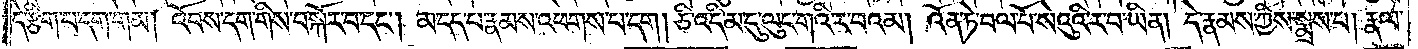དེ་རྩིག་པ་དག་གམ། འོབས་དག་གིས་བསྐོར་བ་དང༌། མ་དད་པ་རྣམས་འཕགས་པ་དག། ཅི་འདྲི་མ་དུ་ལུང་གའི་ར་བའམ། འོན་ཏེ་བལ་པོ་སེའུའི་ར་བ་ཡིན། དེ་རྣམས་ཀྱིས་སྨྲས་པ། རྣལ་
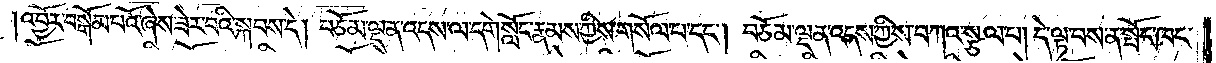འབྱོར་བསྒོམ་པའོ་ཞེས་ཟེར་བའི་སྐབས་དེ། བཅོམ་ལྡན་འདས་ལ་དགེ་སློང་རྣམས་ཀྱིས་གསོལ་པ་དང༌། བཅོམ་ལྡན་འདས་ཀྱིས་བཀའ་སྩལ་པ། དེ་ལྟ་བས་ན་སྤོང་ཁང་
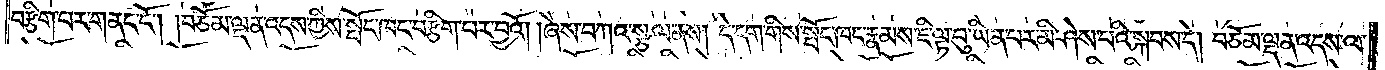བརྩིག་པར་གནང་ངོ༌། །བཅོམ་ལྡན་འདས་ཀྱིས་སྤོང་ཁང་བརྩིག་པར་བྱའོ། །ཞེས་བཀའ་སྩལ་ནས། དེ་དག་གིས་སྤོང་ཁང་རྣམས་ཇི་ལྟ་བུ་ཡིན་པར་མི་ཤེས་པའི་སྐབས་དེ། བཅོམ་ལྡན་འདས་ལ་
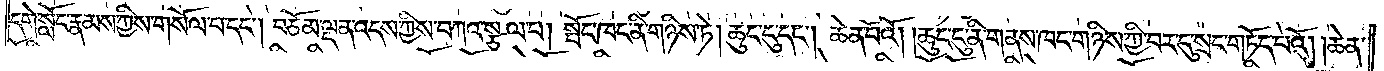དགེ་སློང་རྣམས་ཀྱིས་གསོལ་པ་དང༌། བཅོམ་ལྡན་འདས་ཀྱིས་བཀའ་སྩལ་པ། སྤོང་ཁང་ནི་གཉིས་ཏེ། ཆུང་ངུ་དང༌། ཆེན་པོའོ། །ཆུང་ངུ་ནི་གནས་ཁང་གཉིས་ཀྱི་བར་དུ་སྲང་གཏོད་པའོ། །ཆེན་
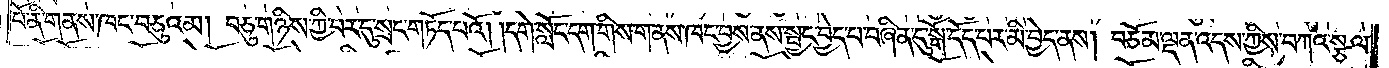པོ་ནི་གནས་ཁང་བཅུའམ། བཅུ་གཉིས་ཀྱི་བར་དུ་སྲང་གཏོད་པའོ། །དགེ་སློང་དག་གིས་གནས་ཁང་བྱས་ནས་སྦྱང་བྱེད་པ་བཞིན་དུ་སྒོ་དོད་པར་མི་བྱེད་ནས། བཅོམ་ལྡན་འདས་ཀྱིས་བཀའ་སྩལ་
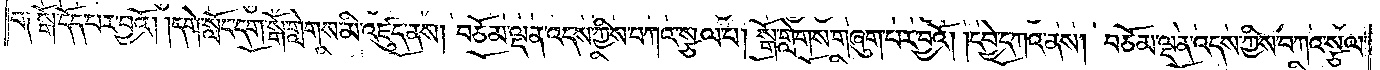བ ༑དོད་པར་བྱའོ། །དགེ་སློང་དག་སྒོ་གླེགས་མི་འཛུད་ནས། བཅོམ་ལྡན་འདས་ཀྱིས་བཀའ་སྩལ་པ། སྒོ་གླེགས་གཞུག་པར་བྱའོ། །དབྱེ་དཀའ་ནས། བཅོམ་ལྡན་འདས་ཀྱིས་བཀའ་སྩལ་
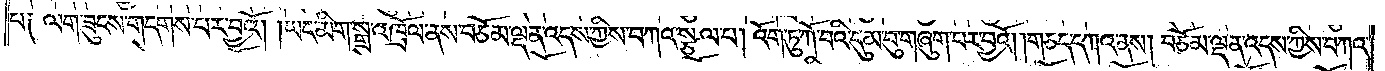པ ༑ ལག་ཟུངས་གདགས་པར་བྱའོ། །ཡང་མིག་སྒྲ་འཁྲོལ་ནས་བཅོམ་ལྡན་འདས་ཀྱིས་བཀའ་སྩལ་པ། འོག་ཏུ་ཀོ་བའི་དུམ་བུ་གཞུག་པར་བྱའོ། །གཅད་དཀའ་ནས། བཅོམ་ལྡན་འདས་ཀྱིས་བཀའ་
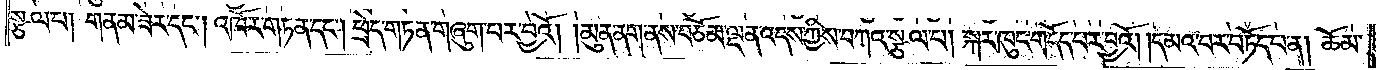སྩལ་པ། གནམ་ཟེར་དང༌། འཁོར་གཏན་དང༌། ཕྲེད་གཏན་གཞུག་བར་བྱའོ། །མུན་ནག་ནས་བཅོམ་ལྡན་འདས་ཀྱིས་བཀའ་སྩལ་པ། སྐར་ཁུང་གདོད་པར་བྱའོ། །དམའ་བར་བཏོད་པ་ན། ཆོམ་
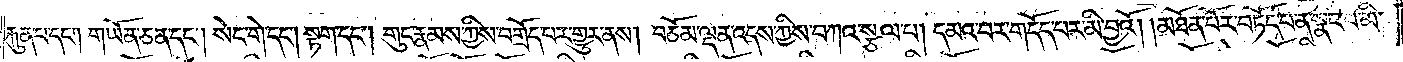རྐུན་པ་དང༌། གཡོན་ཅན་དང༌། སེང་གེ་དང༌། སྟག་དང༌། གུང་རྣམས་ཀྱིས་བགྲོད་པར་གྱུར་ནས། བཅོམ་ལྡན་འདས་ཀྱིས་བཀའ་སྩལ་པ། དམའ་བར་གདོད་པར་མི་བྱའོ། །མཐོན་པོར་བཏོད་པ་ན་སྣང་བ་མི་
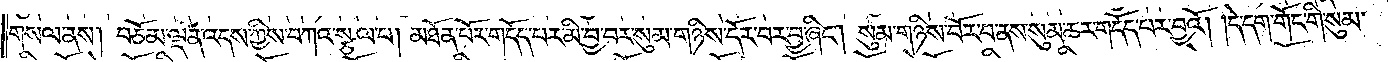གསལ་ནས། བཅོམ་ལྡན་འདས་ཀྱིས་བཀའ་སྩལ་པ། མཐོན་པོར་གདོད་པར་མི་བྱ་བར་སུམ་གཉིས་དོར་བར་བྱ་ཞིང༌། སུམ་གཉིས་བོར་བ་ནས་སུམ་ཆར་གདོད་པར་བྱའོ། །དེ་དག་གོང་གི་སུམ་
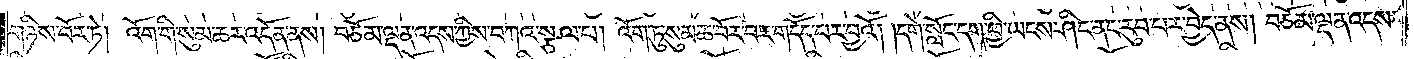གཉིས་བོར་ཏེ། འོག་གི་སུམ་ཆར་འདོན་ནས། བཅོམ་ལྡན་འདས་ཀྱིས་བཀའ་སྩལ་པ། འོག་ཏུ་སུམ་ཆ་བོར་བར་གདོད་པར་བྱའོ། །དགེ་སློང་དག་ཕྱི་ཡངས་ཤིང་ནང་རུབ་པར་བྱེད་ནས། བཅོམ་ལྡན་འདས་
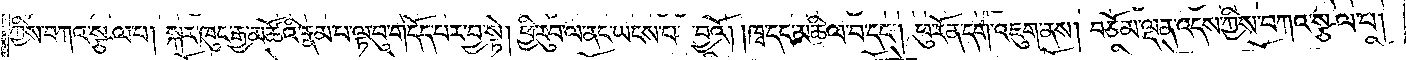ཀྱིས་བཀའ་སྩལ་པ། སྐར་ཁུང་རྒྱ་མཚོའི་རྣམ་པ་ལྟ་བུ་གདོད་པར་བྱ་སྟེ། ཕྱི་རུབ་ལ་ནང་ཡངས་པར་བྱའོ། །ཁྭ་དང་མཆིལ་བ་དང༌། ཕུ་རོན་དག་འཇུག་ནས། བཅོམ་ལྡན་འདས་ཀྱིས་བཀའ་སྩལ་པ།
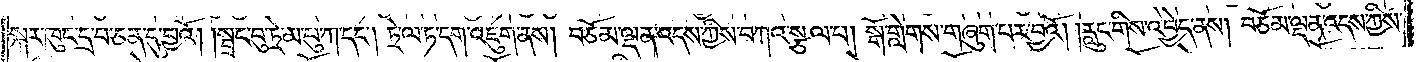སྐར་ཁུང་དྲ་བ་ཅན་དུ་བྱའོ། །སྦྲང་བུ་ཏྲེ་མ་པུ་ཀ་དང༌། ཏྲེ་ལ་ཏ་དག་འཇུག་ནས། བཅོམ་ལྡན་འདས་ཀྱིས་བཀའ་སྩལ་པ། སྒོ་གླེགས་གཞུག་པར་བྱའོ། །རླུང་གིས་འབྱེད་ནས། བཅོམ་ལྡན་འདས་ཀྱིས་
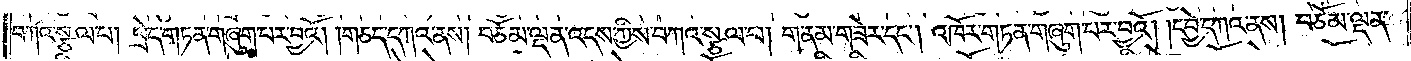བཀའ་སྩལ་པ། ཕྲེད་གཏན་གཞུག་པར་བྱའོ། །གཅད་དཀའ་ནས། བཅོམ་ལྡན་འདས་ཀྱིས་བཀའ་སྩལ་པ། གནམ་གཟེར་དང༌། འཁོར་གཏན་གཞུག་པར་བྱའོ། །དབྱེ་དཀའ་ནས། བཅོམ་ལྡན་
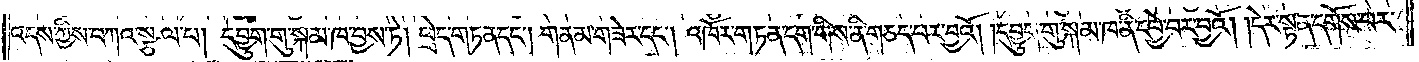འདས་ཀྱིས་བཀའ་སྩལ་པ། དབྱུག་གུ་སྐམ་ཁ་བྱས་ཏེ། ཕྲེད་གཏན་དང༌། གནམ་གཟེར་དང༌། འཁོར་གཏན་དག་གིས་ནི་གཅད་པར་བྱའོ། །དབྱུག་གུ་སྐམ་ཁ་ནི་དབྱེ་བར་བྱའོ། །དེར་སྟན་དགོས་པར་
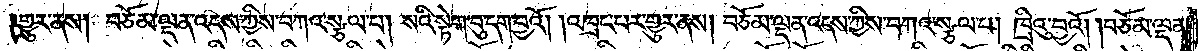གྱུར་ནས། བཅོམ་ལྡན་འདས་ཀྱིས་བཀའ་སྩལ་པ། སའི་སྟེག་བུ་དག་བྱའོ། །འཁྲང་པར་གྱུར་ནས། བཅོམ་ལྡན་འདས་ཀྱིས་བཀའ་སྩལ་པ། ཁྲིའུ་བྱའོ། །བཅོམ་ལྡན་
